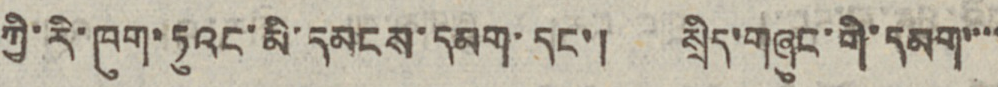ཀྱི་རི་ཁུག་ཏུའང་མི་དམངས་དམག་དང་། སྲིད་གཞུང་གི་དམག་་་་
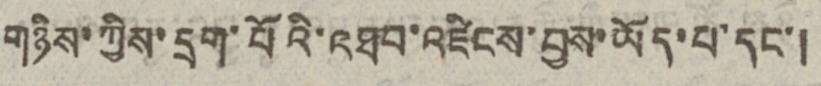གཉིས་ཀྱིས་དྲག་པོའི་འཐབ་འཛིངས་བྱས་ཡོད་པ་དང་།
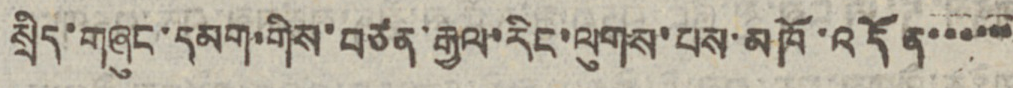སྲིད་གཞུང་དམག་གིས་བཙན་རྒྱལ་རིང་ལུགས་པས་མཁོ་འདོན་་་་་་
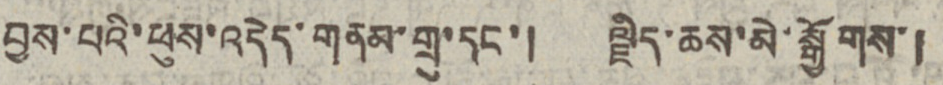བྱས་པའི་ཕུས་འདེད་གནམ་གྲུ་དང་། ལྗིད་ཆས་མེ་སྒྱོགས་།
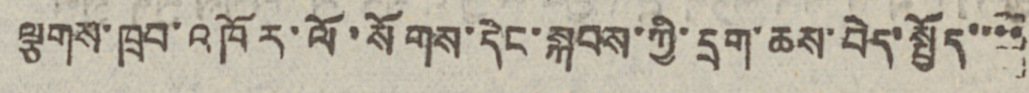ལྕགས་ཁྲབ་འཁོར་ལོ་སོགས་དེང་སྐབས་ཀྱི་དྲག་ཆས་བེད་སྤྱོད་་་་
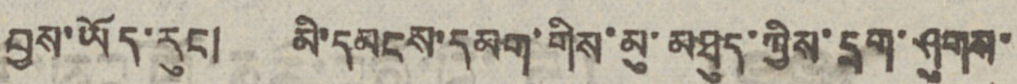བྱས་ཡོད་རུང། མི་དམངས་དམག་གིས་མུ་མཐུད་ཀྱིས་དྲག་ཤུགས་
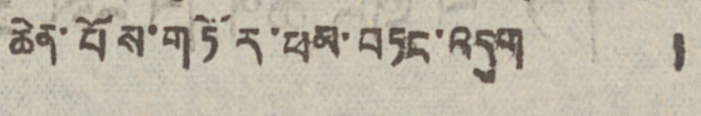ཆེན་པོས་གཏོར་ཕམ་བཏང་འདུག །
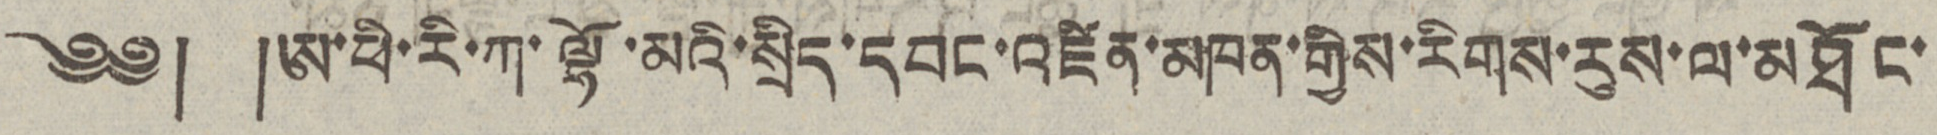༄༅། །ཨ་ཕི་རི་ཀ་ལྷོ་མའི་སྲིད་དབང་འཛིན་མཁན་གྱིས་རིགས་རུས་ལ་མཐོང་
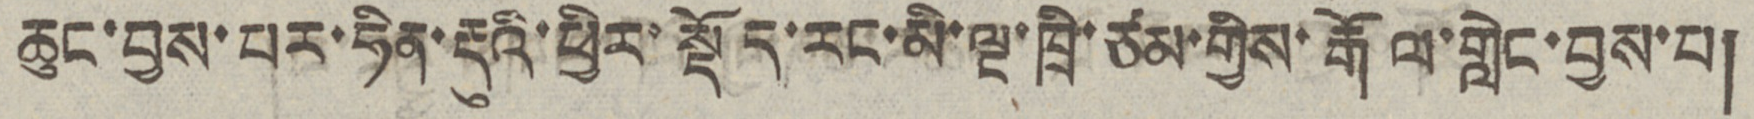ཆུང་བྱས་པར་ཧིན་རྡུའི་ཕྱིར་སྡོད་རང་མི་ལྔ་ཁྲི་ཙམ་གྱིས་རྒོལ་གླེང་བྱས་པ།
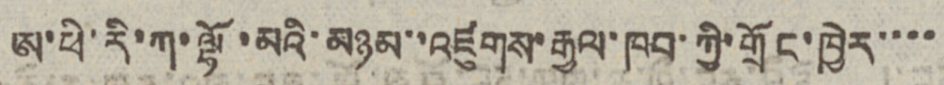ཨ་ཕི་རི་ཀ་ལྷོ་མའི་མཉམ་་འཛུགས་རྒྱལ་ཁབ་ཀྱི་གྲོང་ཁྱེར་་་་
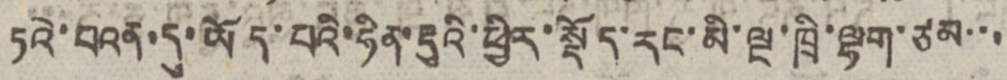ཏའེ་པའན་དུ་ཡོད་པའི་ཧིན་རྡུའི་ཕྱིར་སྡོད་རང་མི་ལྔ་ཁྲི་ལྷག་ཙམ་་་
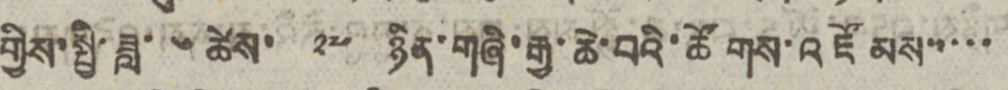གྱིས་སྤྱི་ཟླ་ ༦ ཚེས་ ༢༧ ཉིན་གཞི་རྒྱ་ཆེ་བའི་ཚོགས་འཛོམས་་་་་
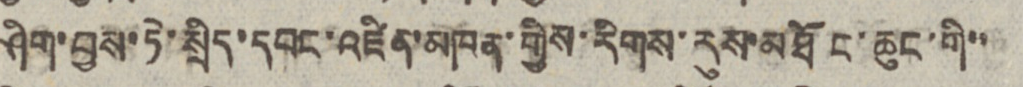ཤིག་བྱས་ཏེ་སྲིད་དབང་འཛིན་མཁན་གྱིས་རིགས་རུས་མཐོང་ཆུང་གི་་
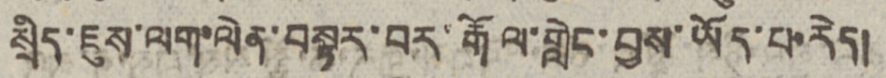སྲིད་ཇུས་ལག་ལེན་བསྟར་བར་རྒོལ་གླེང་བྱས་ཡོད་པ་རེད།
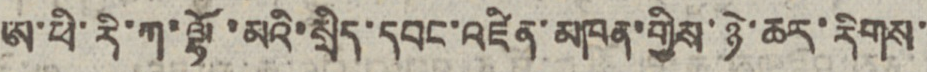ཨ་ཕི་རི་ཀ་ལྷོ་མའི་སྲིད་དབང་འཛིན་མཁན་གྱིས་ཉེ་ཆར་རིགས་
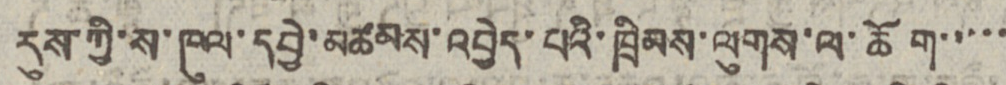རུས་ཀྱི་ས་ཁུལ་དབྱེ་མཚམས་འབྱེད་པའི་ཁྲིམས་ལུགས་ལ་ཆོག་་་་་
